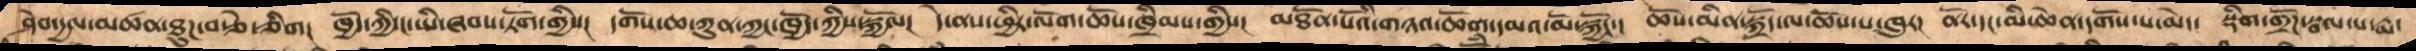ཤེབ་དྱལ་མཚན་ཐུཌ་བརྩེ་ཅིག།  ཁྱོད་ཀྱི་ང་ཡི་ཞབས་ཏོག་གྱིས།  དགོས་ཆ་ཀུན་ཀྱ་ཁྱོད་ཀྱིས་སྐྱོལ།  དེ་ནས་ཕྱིར་ལོག་ཆོས་ཁྲིམས་གྱིས།  མཐོན་པོའི་གཉའ་ཆོག་དམའ་མོ་སྐྱོང་།  ཆོས་མིན་སྐྲོད་ལ་ཆོས་པ་ཁུར།  ནོར་དང་མི་ཆེན་དགོས་པ་མེད་  སྡིག་གྲོཌ་སྦལ་པ་རྨ་
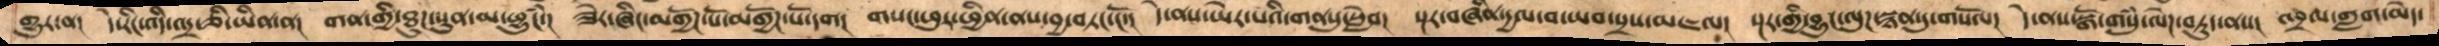གྱུར་ན།  དེ་རིང་འདི་འདྲ་ཅི་ཡིན་ན།  གཞན་གྱི་ཐུཌ་སུན་མ་ཕྱུངཾ་།  ཟེར་ཞིང་མགྱོཌ་པོ་མགྱོཌ་པོ་དག།  གསང་ཕུར་ཕྱིན་ནས་བྱ་བཏང་ངོ་།  དེ་ནས་ཡེར་པའི་གནསུ་སླེབ།  སྔར་བཞིན་དྱལ་བ་ཡབ་སྲས་མཇལ།  སྔར་གྱི་བྱུང་ལུཌ་སྙན་དུ་གསོལ།  དེ་ནས་སྒོ་གསུཾ་ལེཌ་བཏུད་ནས།  འབྲལ་གླག་མེད་
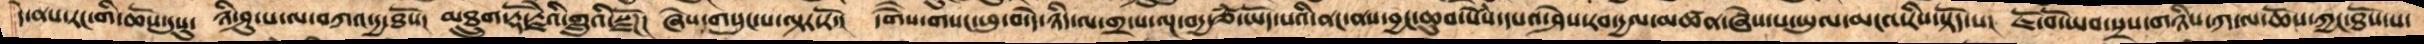དེ་ནས་རང་གི་ཆོས་དུསུ།  ཉི་ཤུ་པ་ལ་བཀའ་བདྱ་ཐོས།  མཐྲུག་རྡོ་རྗེའི་གླུའི་སྫོཌ།  ཞེས་གསུངས་པ་ལྟར་རོ།  དགཻས་གསང་ཕུ་བ་དེ་ཉིད་ལ་གྲ་པ་ལྔ་བདྱ་ཙཾ་ཡོད་པའི་ནང་ནས་བྱང་ཆུབ་སེཾས་དཔའ་ཤེས་རབ་དྱལ་མཚན་ཞེས་པ་ཡུལ་མངའ་རིས་སྟོད་པ།  ཇོ་བོ་ཡབ་སྲས་གཉིས་ཀ་ལ་ཆོས་ཀྱང་ཐོས་པ་
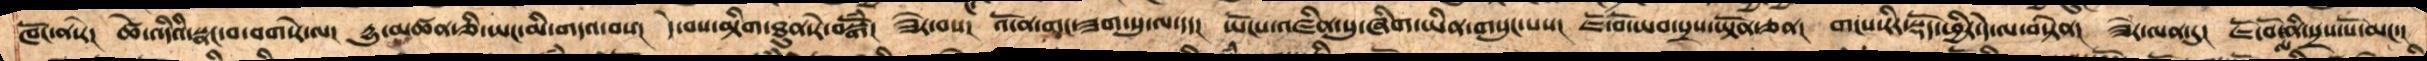ཁོང་ན་རེ།  ཚེ་འདིའི་སྣང་བ་བག་རེ་ལ།  དྱུ་མཚན་ཅི་ཡང་མི་གདའ་བས།  དེ་བས་མྟེོག་ཐུན་རེ་བསྒོཾ།  ཟེར་བས།  འོ་ན་གང་ཟག་སུ་ལ་དད།  ཡོངས་འཛིན་སུ་ཞིག་ཡིན་གསུང་པས།  ཇོ་བོ་ཡབ་སྲས་ཡྟོན་ཅན།  གངས་རིར་སྡོད་ཕྱིར་དེ་ལ་བསྟེན།  ཟེར་ལན་དུ།  ཇོ་བོ་ལ་ནི་སྲས་སོ་མང་།
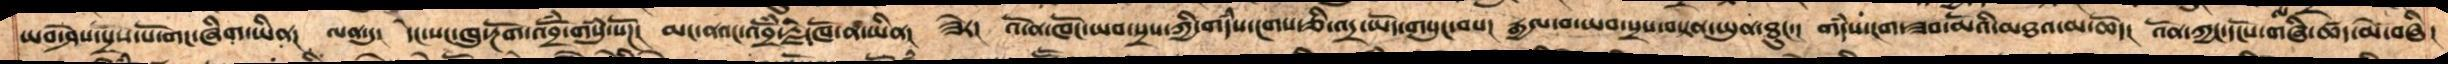ཡབ་ཤེས་སྲས་པོ་གང་ཞིག་ཡིན།  ལན་དུ།  དེང་སང་ཁུ་རྔོག་འབྲོཾ་གསུཾ་སོཌ།  མང་ནའང་འབྲོཾ་རྗེ་ཁོ་ན་ཡིན།  ཟེར།  འོ་ན་ཁོང་ཡབ་སྲས་ཀྱི་གདཾས་ངགས་ཅི་འདྲ་ཡོད་གསུང་བས།  དྱལ་བ་ཡབ་སྲས་བསྟན་ཡུན་ཐུང་།  གདཾས་ངག་ཟབ་མོའི་མཐའ་མ་ཆོད།  འོན་ཀྱང་དངོས་གཞི་ཚད་མེ་བཞི།
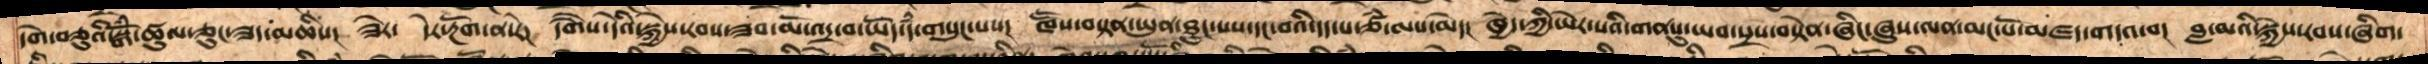དགེ་བཅུའི་སྒོཾ་ཚུལ་ཅུང་ཟད་མཆིས།  ཟེར།  དེར་རྔོག་ན་རེ།  དགཻས་དེའི་སྐྱེས་རབས་ཟབ་མོ་འདྲ་བ་ཡོད་དཾ་གསུངས་པས།  ཁཽས་བསྟན་ཡུན་ཐུང་པས་དང་བའི་དད་པ་ཙཾ་ལས་མེད།  ཁྱེད་ཀྱི་ཡེར་པའི་གནསུ་ཡབ་སྲས་བསྟེན་ཞིང་ཞུ་ལན་མང་པོ་མཛད་གདའ་བ།  བླ་མའི་སྐྱེས་རབས་ཞིག་
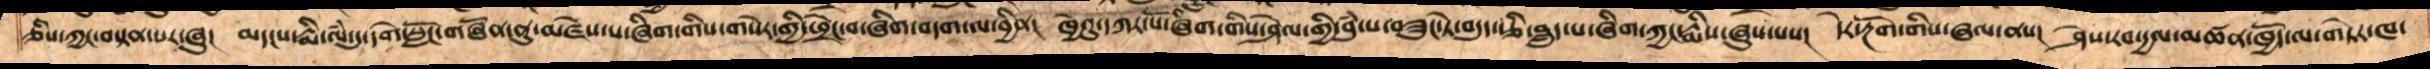ཅིས་ཀྱང་བསྟན་པར་ཞུ།  མདང་རྨི་ལཾ་དུ་དགེ་སློང་གཞོན་ནུ་མཛེས་པ་ཞིག་གིས་གསེར་གྱི་ཕྲེང་བ་ཞིག་བདག་ལ་བྱིན།  ཁྱེའུ་དཀར་པོ་ཞིག་གིས་ཤེལ་གྱི་བུཾ་པ་བཟུང་སྟེ་བདུད་རྩི་བླུད་པ་ཞིག་ཀྱང་རྨིས་ཞུས་པས།  དེར་རྔོག་གིས་ཞལ་ནས།  ཤེས་རབ་དྱལ་མཚན་ཁྱོད་ལ་གཏེར་ཁ་
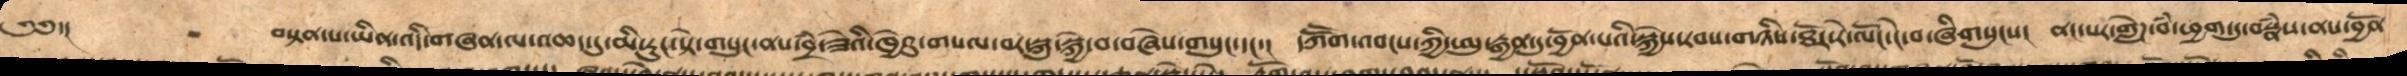༄༅་།     བསྟན་པ་ཡིན་འདི་གཞན་ལ་འཆད་དུ་མི་རུང་སྟེ་གསུངས་ནས་བྲམ་ཟེའི་ཁྱེའུ་གསལ་བར་སྐུ་སྐྱེ་བ་བཞེས་གསུང་དང་།  དཀཽག་འབངས་ཀྱིཨུ་རྒྱན་དུ་བྱོན་པའི་སྐྱེས་རབས་གཉིས་ཐོར་རེ་ལོང་ངེ་བ་ཞིགསུངས།  ནང་པར་གླེཌ་བཾ་ཕྱག་དུ་བསྣཾས་ནས་བྱོན་
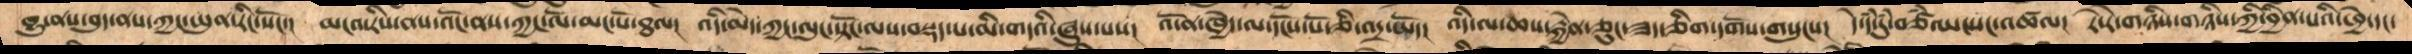ཁྱུ་ནས་བུད་ནས་ཀྱང་ཡུན་རིང་སོང་། མངའ་རིས་ནས་འོང་ནས་ཀྱང་ལོ་མང་པོ་ཐལ། འདི་མེད་ཀྱང་ལུང་སྟོང་ལས་བསྡད་ས་མི་གདའི་ཞུས་པས། འོ་ན་ཁྱེད་ལ་དངོས་པོ་ཅི་འདྲ་ཡོད། འདི་ལ་ཆས་རྐྱེན་ཅུང་ཟད་ཅིག་དགོས་གསུངས། དེ་དཾ་དུཾ་བཙཾ་ཡངསང་འཚལ། རེ་རེ་གཉིས་གཉིས་ཀྱི་བྱིན་པའི་ཕྱེ་དང་
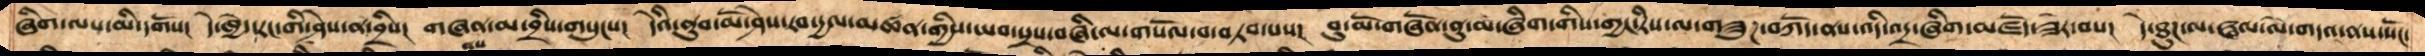ཞིག་ལས་མི་དགོས། དེ་ཁྱེད་རང་གི་ཤེས་ན་བྲིས། གཞན་མ་བྲིས་གསུངས། དེའི་ནུབ་མོ་ཤེས་རབ་དྱལ་མཚན་གྱིས་ཡབ་སྲས་བཞི་ལ་གསོལ་བ་བཏབ་པས། བུ་མོ་གཞོན་ནུ་མ་ཞིག་གིས་གྱང་རིས་ལ་གཟུཌ་བཀོད་ནས་འདི་འདྲ་ཞིག་མཛོད་ཟེར་བས། དེ་ཐུཌ་ལ་ཝལ་ལེ་གདའ་ནས་སོང་
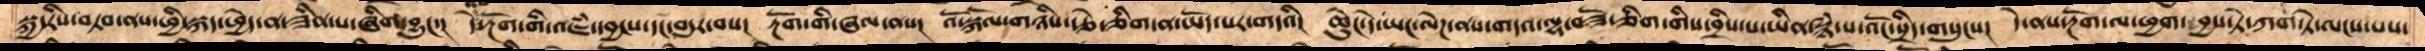སྐྱ་རིས་བཏབ་ནས་ཕྱི་སྐད་ཕྱེད་ན་ཟིན་པ་ཅིག་བྱུང་།  དེ་ནས་རྔོག་གི་འཇཾ་དབྱངས་དང་བདུར་བས།  རྔོག་གི་ཞལ་ནས།  འོ་སྐོལ་གཉིས་རྩེ་ཅིག་ན་ཡོད་པར་གདའི།  ཆེུང་དེ་ཡང་ལེཌ་ནས་གདའ་ལྷ་བཟོ་ཅིག་གིས་བྲིས་པ་ཡིན་སྙཾ་པ་འོང་སྲིད་གསུངས།  དེ་ནས་རྔོག་ལ་ཕྱག་བྱས་ཏེ་ཀག་ཏེ་ལངས་པས་
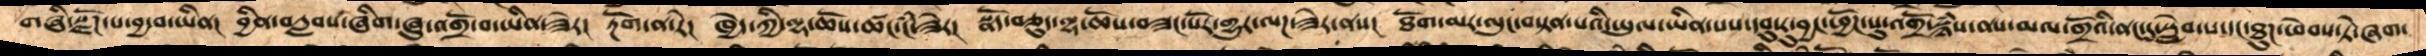གཞི་སྫོཌ་པ་བྱ་བ་ཡིན།  བྱིན་བརླབས་ཞིག་ཞུ་འགྲོ་བ་ཡིན་ཟེར།  རྔོག་ན་རེ།  ཁྱེད་ཀྱི་ལྷ་ཆོས་ཚང་ངཾ་ཟེར། སྣོད་བཅུད་ལྷ་ཆོས་བཟང་པོར་གྱུར་ལཌ་ཟེར་ནས།  ཐོག་མར་ལུང་བསྟན་པའི་ཡུལ་ཡིན་པས་དབུསུ་བྱང་ཕྱོཌ་སུ་འགྲོ་སྙཾས་ནས་མལ་གྲོའི་ནང་དུ་སླེབ་པ་དང་ཐུཌ་ཕེབས་ཏེ་ཞག་
